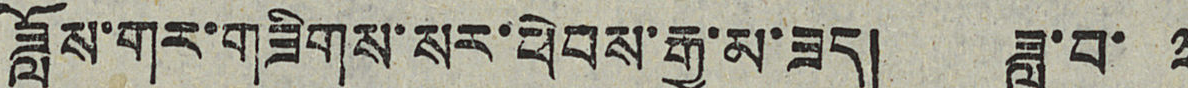ཟློས་གར་གཟིགས་སར་ཕེབས་རྒྱུ་མ་ཟད། ཟླ་བ་ ༣
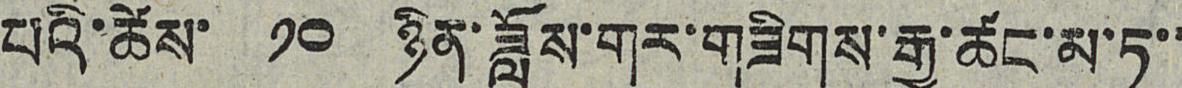པའི་ཚེས་ ༡༠ ཉིན་ཟློས་གར་གཟིགས་རྒྱུ་ཚང་མ་ཏ་་
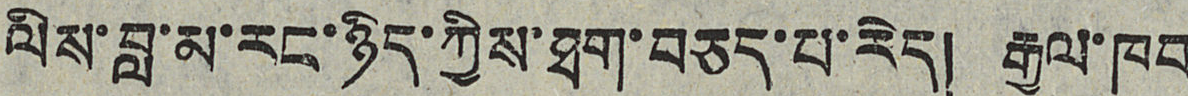ལིས་བླ་མ་རང་ཉིད་ཀྱིས་ཐག་བཅད་པ་རེད། རྒྱལ་ཁབ
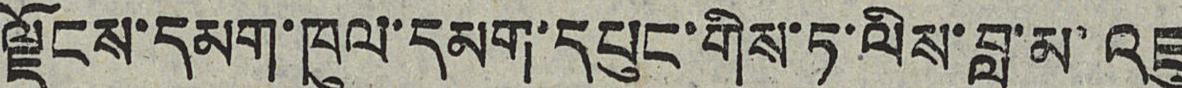ལྗོངས་དམག་ཁུལ་དམག་དཔུང་གིས་ཏ་ལིས་བླ་མ་འཇུ
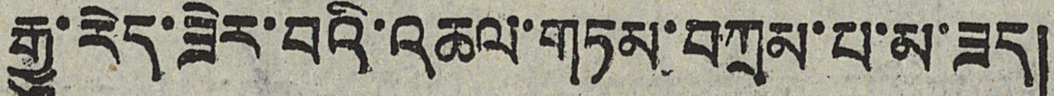རྒྱུ་རེད་ཟེར་བའི་འཆལ་གཏམ་བཀྲམ་པ་མ་ཟད།
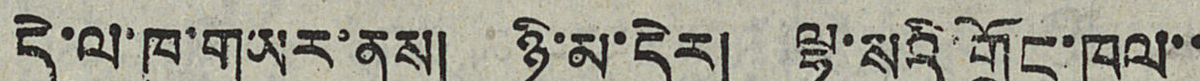དེ་ལ་ཁ་གཡར་ནས། ཉི་མ་དེར། ལྷ་སའི་གྲོང་ཁུལ་་
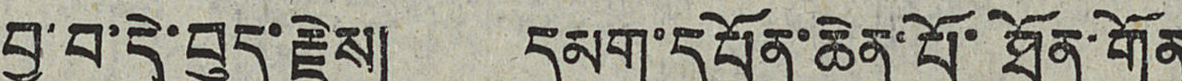བྱ་བ་དེ་བུད་རྗེས། དམག་དབོན་ཆེན་པོ་ཐོན་གོན
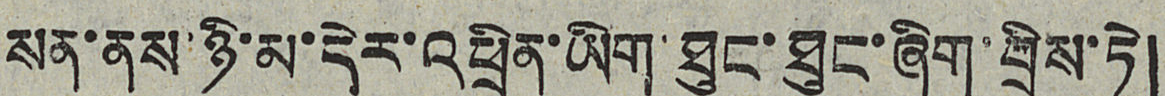སན་ནས་ཉི་མ་དེར་འཕྲིན་ཡིག་ཐུང་ཐུང་ཞིག་བྲིས་ཏེ།
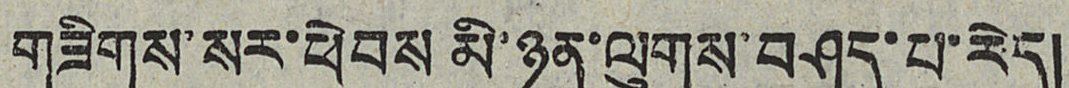གཟིགས་སར་ཕེབས་མི་ཉན་ལུགས་བཤད་པ་རེད།
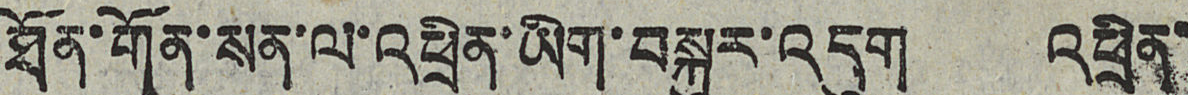ཐོན་གོན་སན་ལ་འཕྲིན་ཡིག་བསྐུར་འདུག འཕྲིན་
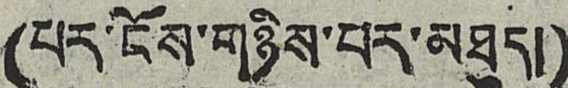(པར་ངོས་གཉིས་པར་མཐུད།)
